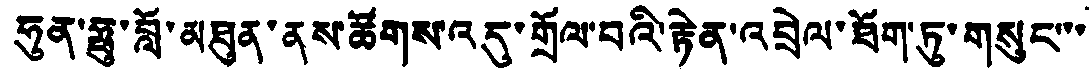ཧུན་ཧྥུ་བློ་མཐུན་ནས་ཚོགས་འདུ་གྲོལ་བའི་རྟེན་འབྲེལ་ཐོག་ཏུ་གསུང་་་
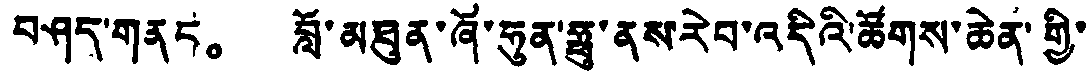བཤད་གནད。 བློ་མཐུན་ཞོ་ཧུན་ཧྥུ་ནས་རེབ་འདིའི་ཚོགས་ཆེན་གྱི་
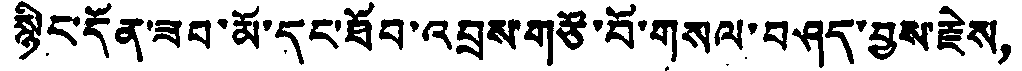སྙིང་དོན་ཟབ་མོ་དང་ཐོབ་འབྲས་གཙོ་བོ་གསལ་བཤད་བྱས་རྗེས，
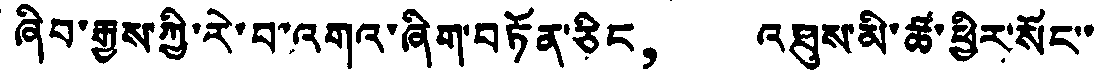ཞིབ་རྒྱས་ཀྱི་རེ་བ་འགའ་ཞིག་བཏོན་ཅིང， འཐུས་མི་ཚ་ཕྱིར་སོང་
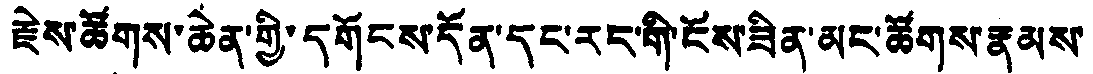རྗེས་ཚོགས་ཆེན་གྱི་དགོངས་དོན་དང་རང་གི་ངོས་ཟིན་མང་ཚོགས་རྣམས་
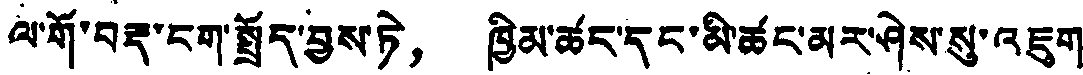ལ་གོ་བརྡ་ངག་སྤྲོད་བྱས་ཏེ， ཁྱིམ་ཚང་དང་མི་ཚང་མར་ཤེས་སུ་འཇུག
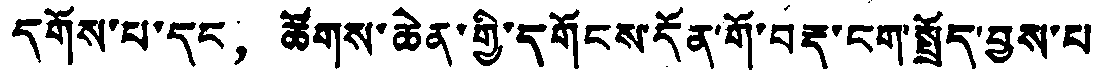དགོས་པ་དང， ཚོགས་ཆེན་གྱི་དགོངས་དོན་གོ་བརྡ་ངག་སྤྲོད་བྱས་པ།
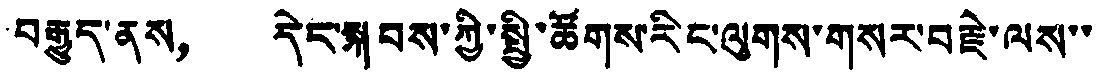བརྒྱུད་ནས， དེང་སྐབས་ཀྱི་སྤྱི་ཚོགས་རིང་ལུགས་གསར་བརྗེ་ལས་་
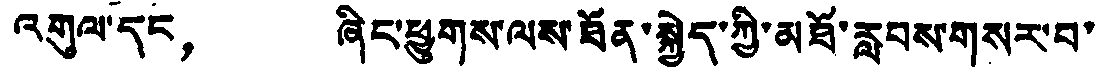འགུལ་དང， ཞིང་ཕྱུགས་ལས་ཐོན་སྐྱེད་ཀྱི་མཐོ་རླབས་གསར་བ་
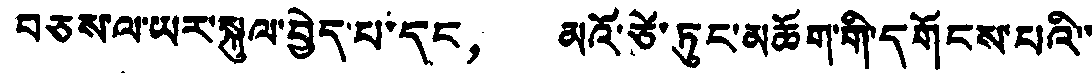བཅས་ལ་ཡར་སྐུལ་བྱེད་པ་དང， མའོ་ཙེ་ཏུང་མཆོག་གི་དགོངས་པའི་་
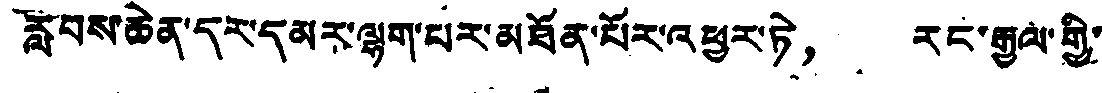རླབས་ཆེན་དར་དམར་ལྷག་པར་མཐོན་པོར་འཕྱུར་ཏེ， རང་རྒྱལ་གྱི་
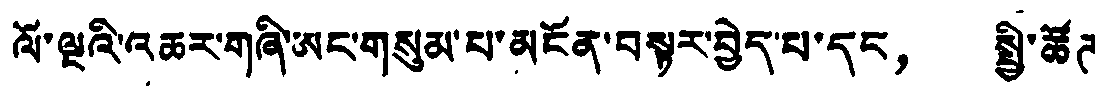ལོ་ལྔའི་འཆར་གཞི་ཨང་གསུམ་པ་མངོན་བསྟར་བྱེད་པ་དང， སྤྱི་ཚོཊ
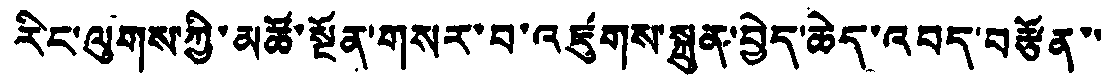རིང་ལུགས་ཀྱི་མཚོ་སྔོན་གསར་བ་འཛུགས་སྐྲུན་བྱེད་ཆེད་འབད་བརྩོན་་
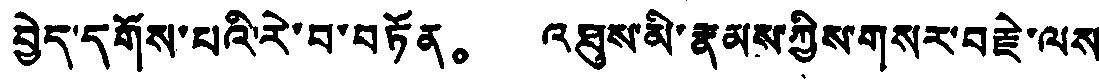བྱེད་དགོས་པའི་རེ་བ་བཏོན。 འཐུས་མི་རྣམས་ཀྱིས་གསར་བརྗེ་ལས་
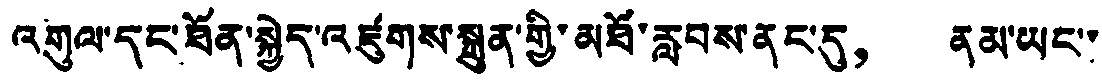འགུལ་དང་ཐོན་སྐྱེད་འཛུགས་སྐྲུན་གྱི་མཐོ་རླབས་ནང་དུ， ནམ་ཡང་་
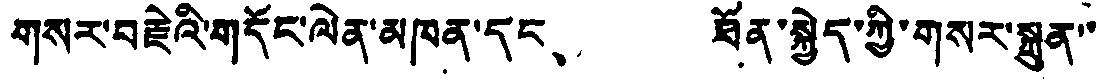གསར་བརྗེའི་གདོང་ལེན་མཁན་དང、 ཐོན་སྐྱེད་ཀྱི་གསར་སྐྲུན་་
